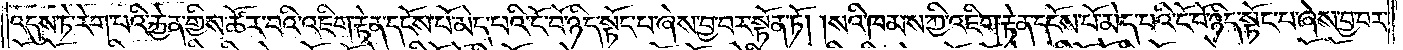འདུས་ཏེ་རེག་པའི་རྐྱེན་གྱིས་ཚོར་བའི་འཇིག་རྟེན་དངོས་པོ་མེད་པའི་ངོ་བོ་ཉིད་སྟོང་པ་ཞེས་བྱ་བར་སྟོན་ཏོ། །སའི་ཁམས་ཀྱི་འཇིག་རྟེན་དངོས་པོ་མེད་པའི་ངོ་བོ་ཉིད་སྟོང་པ་ཞེས་བྱ་བར་
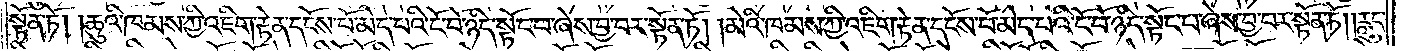སྟོན་ཏོ། །ཆུའི་ཁམས་ཀྱི་འཇིག་རྟེན་དངོས་པོ་མེད་པའི་ངོ་བོ་ཉིད་སྟོང་པ་ཞེས་བྱ་བར་སྟོན་ཏོ། །མེའི་ཁམས་ཀྱི་འཇིག་རྟེན་དངོས་པོ་མེད་པའི་ངོ་བོ་ཉིད་སྟོང་པ་ཞེས་བྱ་བར་སྟོན་ཏོ། །རླུང་
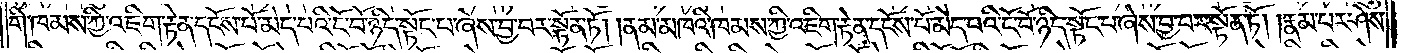གི་ཁམས་ཀྱི་འཇིག་རྟེན་དངོས་པོ་མེད་པའི་ངོ་བོ་ཉིད་སྟོང་པ་ཞེས་བྱ་བར་སྟོན་ཏོ། །ནམ་མཁའི་ཁམས་ཀྱི་འཇིག་རྟེན་དངོས་པོ་མེད་པའི་ངོ་བོ་ཉིད་སྟོང་པ་ཞེས་བྱ་བར་སྟོན་ཏོ། །རྣམ་པར་ཤེས་
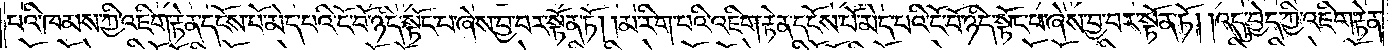པའི་ཁམས་ཀྱི་འཇིག་རྟེན་དངོས་པོ་མེད་པའི་ངོ་བོ་ཉིད་སྟོང་པ་ཞེས་བྱ་བར་སྟོན་ཏོ། །མ་རིག་པའི་འཇིག་རྟེན་དངོས་པོ་མེད་པའི་ངོ་བོ་ཉིད་སྟོང་པ་ཞེས་བྱ་བར་སྟོན་ཏོ། །འདུ་བྱེད་ཀྱི་འཇིག་རྟེན་
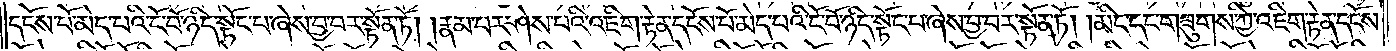དངོས་པོ་མེད་པའི་ངོ་བོ་ཉིད་སྟོང་པ་ཞེས་བྱ་བར་སྟོན་ཏོ། །རྣམ་པར་ཤེས་པའི་འཇིག་རྟེན་དངོས་པོ་མེད་པའི་ངོ་བོ་ཉིད་སྟོང་པ་ཞེས་བྱ་བར་སྟོན་ཏོ། །མིང་དང་གཟུགས་ཀྱི་འཇིག་རྟེན་དངོས་
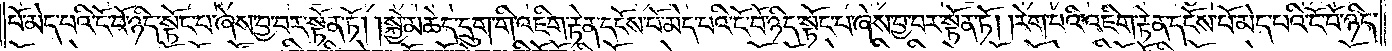པོ་མེད་པའི་ངོ་བོ་ཉིད་སྟོང་པ་ཞེས་བྱ་བར་སྟོན་ཏོ། །སྐྱེ་མཆེད་དྲུག་གི་འཇིག་རྟེན་དངོས་པོ་མེད་པའི་ངོ་བོ་ཉིད་སྟོང་པ་ཞེས་བྱ་བར་སྟོན་ཏོ། །རེག་པའི་འཇིག་རྟེན་དངོས་པོ་མེད་པའི་ངོ་བོ་ཉིད་
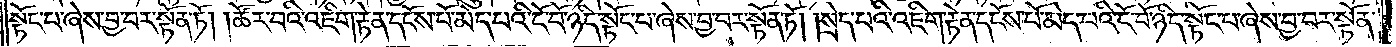སྟོང་པ་ཞེས་བྱ་བར་སྟོན་ཏོ། །ཚོར་བའི་འཇིག་རྟེན་དངོས་པོ་མེད་པའི་ངོ་བོ་ཉིད་སྟོང་པ་ཞེས་བྱ་བར་སྟོན་ཏོ། །སྲེད་པའི་འཇིག་རྟེན་དངོས་པོ་མེད་པའི་ངོ་བོ་ཉིད་སྟོང་པ་ཞེས་བྱ་བར་སྟོན་
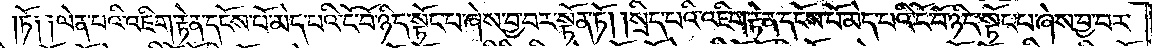ཏོ༑ ༑ལེན་པའི་འཇིག་རྟེན་དངོས་པོ་མེད་པའི་ངོ་བོ་ཉིད་སྟོང་པ་ཞེས་བྱ་བར་སྟོན་ཏོ། །སྲིད་པའི་འཇིག་རྟེན་དངོས་པོ་མེད་པའི་ངོ་བོ་ཉིད་སྟོང་པ་ཞེས་བྱ་བར་
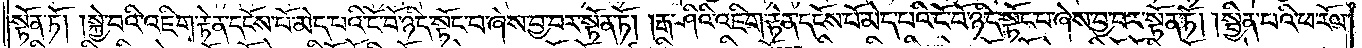སྟོན་ཏོ། །སྐྱེ་བའི་འཇིག་རྟེན་དངོས་པོ་མེད་པའི་ངོ་བོ་ཉིད་སྟོང་པ་ཞེས་བྱ་བར་སྟོན་ཏོ། །རྒ་ཤའི་འཇིག་རྟེན་དངོས་པོ་མེད་པའི་ངོ་བོ་ཉིད་སྟོང་པ་ཞེས་བྱ་བར་སྟོན་ཏོ། །སྦྱིན་པའི་ཕ་རོལ་
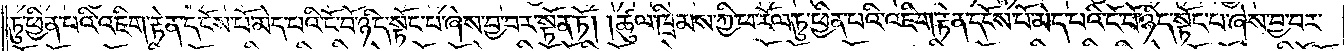ཏུ་ཕྱིན་པའི་འཇིག་རྟེན་དངོས་པོ་མེད་པའི་ངོ་བོ་ཉིད་སྟོང་པ་ཞེས་བྱ་བར་སྟོན་ཏོ། །ཚུལ་ཁྲིམས་ཀྱི་ཕ་རོལ་ཏུ་ཕྱིན་པའི་འཇིག་རྟེན་དངོས་པོ་མེད་པའི་ངོ་བོ་ཉིད་སྟོང་པ་ཞེས་བྱ་བར་
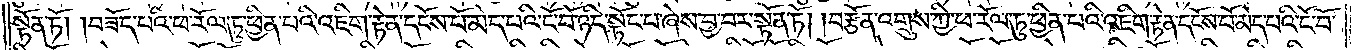སྟོན་ཏོ། །བཟོད་པའི་ཕ་རོལ་ཏུ་ཕྱིན་པའི་འཇིག་རྟེན་དངོས་པོ་མེད་པའི་ངོ་བོ་ཉིད་སྟོང་པ་ཞེས་བྱ་བར་སྟོན་ཏོ། །བརྩོན་འགྲུས་ཀྱི་ཕ་རོལ་ཏུ་ཕྱིན་པའི་འཇིག་རྟེན་དངོས་པོ་མེད་པའི་ངོ་བོ་
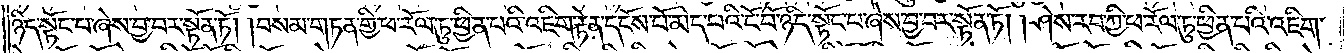ཉིད་སྟོང་པ་ཞེས་བྱ་བར་སྟོན་ཏོ། །བསམ་གཏན་གྱི་ཕ་རོལ་ཏུ་ཕྱིན་པའི་འཇིག་རྟེན་དངོས་པོ་མེད་པའི་ངོ་བོ་ཉིད་སྟོང་པ་ཞེས་བྱ་བར་སྟོན་ཏོ། །ཤེས་རབ་ཀྱི་ཕ་རོལ་ཏུ་ཕྱིན་པའི་འཇིག་
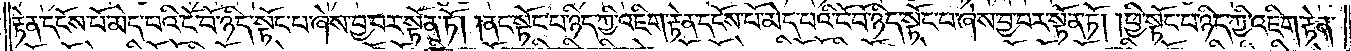རྟེན་དངོས་པོ་མེད་པའི་ངོ་བོ་ཉིད་སྟོང་པ་ཞེས་བྱ་བར་སྟོན་ཏོ། །ནང་སྟོང་པ་ཉིད་ཀྱི་འཇིག་རྟེན་དངོས་པོ་མེད་པའི་ངོ་བོ་ཉིད་སྟོང་པ་ཞེས་བྱ་བར་སྟོན་ཏོ། །ཕྱི་སྟོང་པ་ཉིད་ཀྱི་འཇིག་རྟེན་
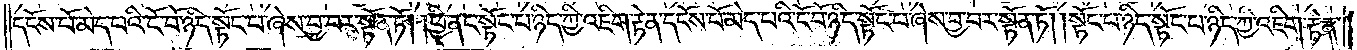དངོས་པོ་མེད་པའི་ངོ་བོ་ཉིད་སྟོང་པ་ཞེས་བྱ་བར་སྟོན་ཏོ། །ཕྱི་ནང་སྟོང་པ་ཉིད་ཀྱི་འཇིག་རྟེན་དངོས་པོ་མེད་པའི་ངོ་བོ་ཉིད་སྟོང་པ་ཞེས་བྱ་བར་སྟོན་ཏོ། །སྟོང་པ་ཉིད་སྟོང་པ་ཉིད་ཀྱི་འཇིག་རྟེན་
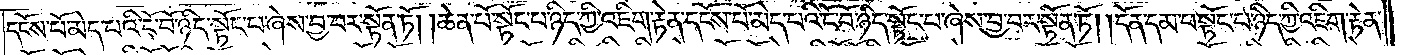དངོས་པོ་མེད་པའི་ངོ་བོ་ཉིད་སྟོང་པ་ཞེས་བྱ་བར་སྟོན་ཏོ། །ཆེན་པོ་སྟོང་པ་ཉིད་ཀྱི་འཇིག་རྟེན་དངོས་པོ་མེད་པའི་ངོ་བོ་ཉིད་སྟོང་པ་ཞེས་བྱ་བར་སྟོན་ཏོ། །དོན་དམ་པ་སྟོང་པ་ཉིད་ཀྱི་འཇིག་རྟེན་
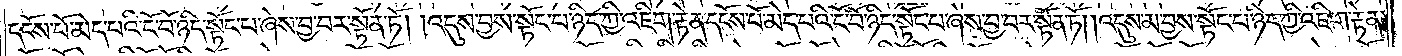དངོས་པོ་མེད་པའི་ངོ་བོ་ཉིད་སྟོང་པ་ཞེས་བྱ་བར་སྟོན་ཏོ། །འདུས་བྱས་སྟོང་པ་ཉིད་ཀྱི་འཇིག་རྟེན་དངོས་པོ་མེད་པའི་ངོ་བོ་ཉིད་སྟོང་པ་ཞེས་བྱ་བར་སྟོན་ཏོ། །འདུས་མ་བྱས་སྟོང་པ་ཉིད་ཀྱི་འཇིག་རྟེན་
